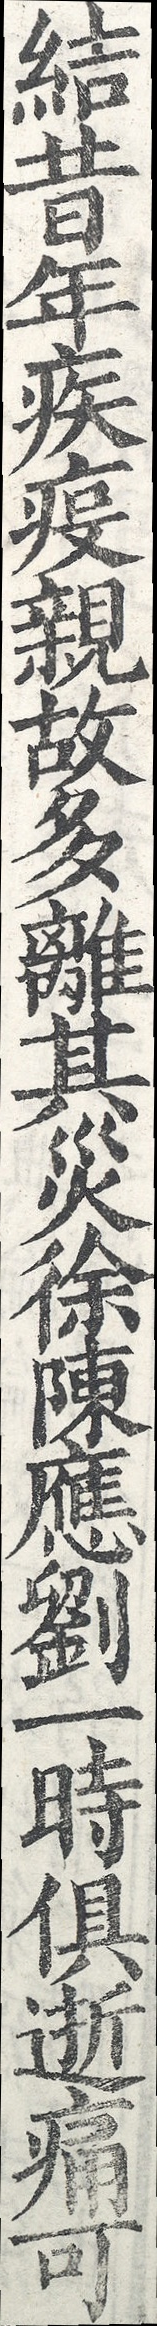結昔年疾疫親故多離其災徐陳應劉一時俱逝痛可
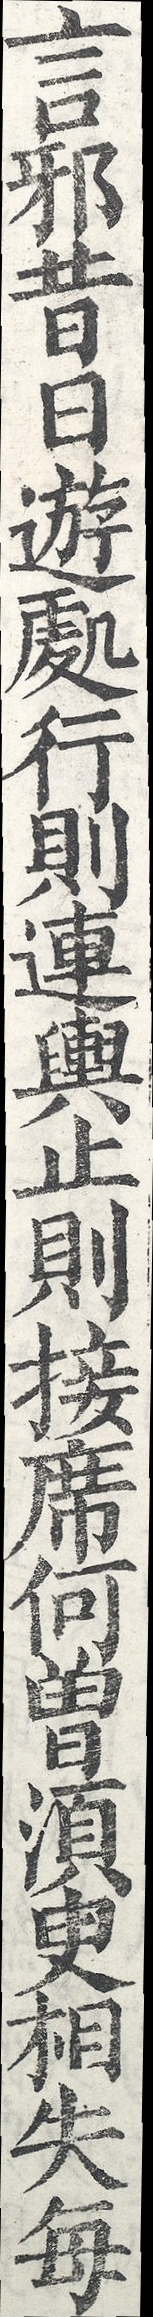言邪昔日遊處行則連輿止則接席何曾須臾相失每
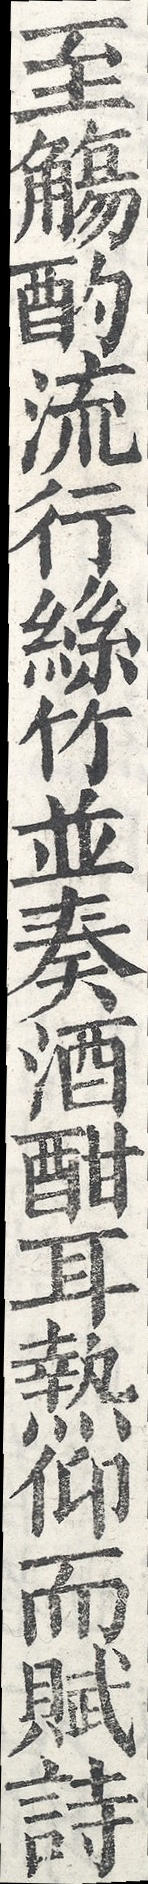至觴酌流行絲竹並奏酒酣耳熱仰而賦詩
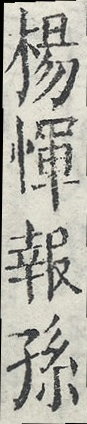楊惲報孫
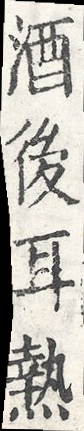酒後耳熱
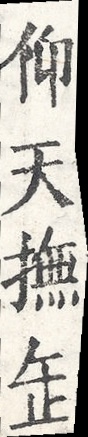仰天撫缶
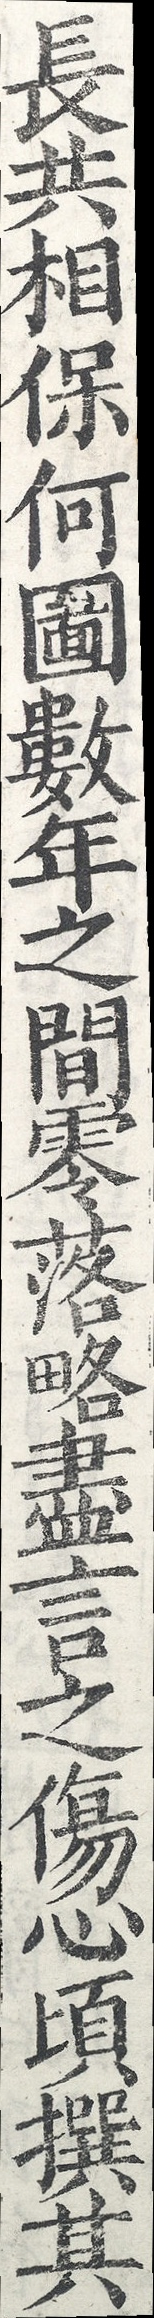長共相保何圖數年之間零落略盡言之傷心頃撰其
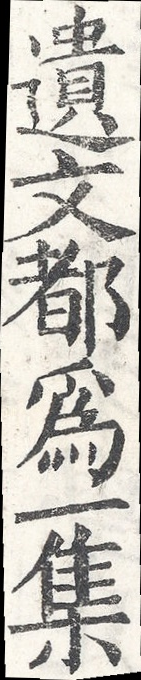遺文都為一集
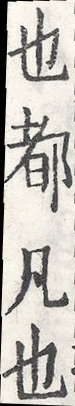也都凡也
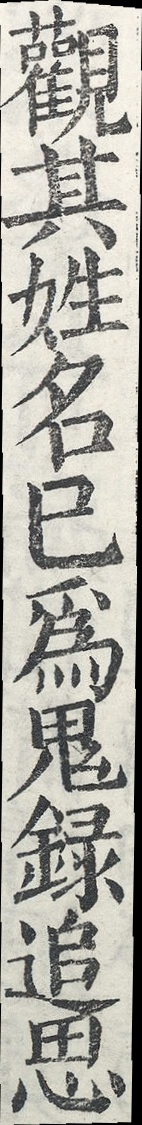觀其姓名已為鬼錄追思
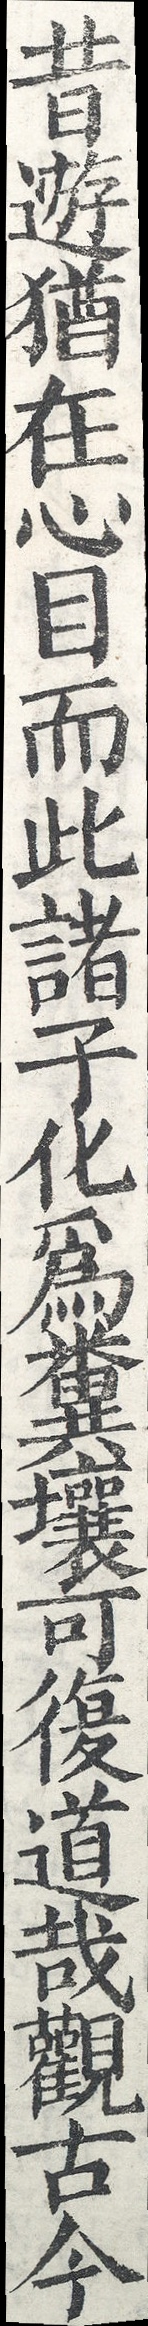昔遊猶在心目而此諸子化為糞壤可復道哉觀古今
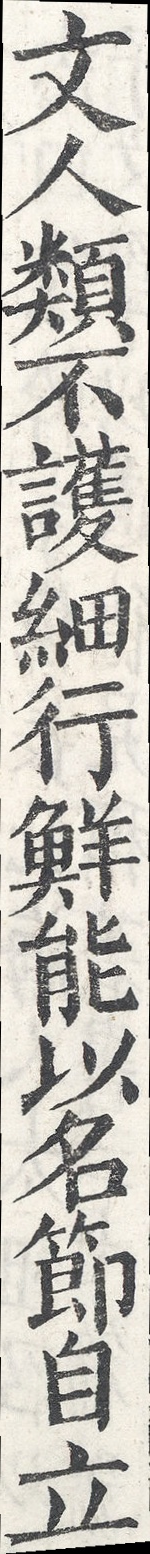文人類不護細行鮮能以名節自立
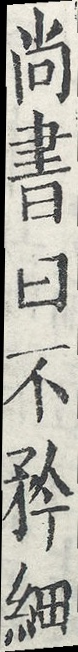尚書曰不矜細
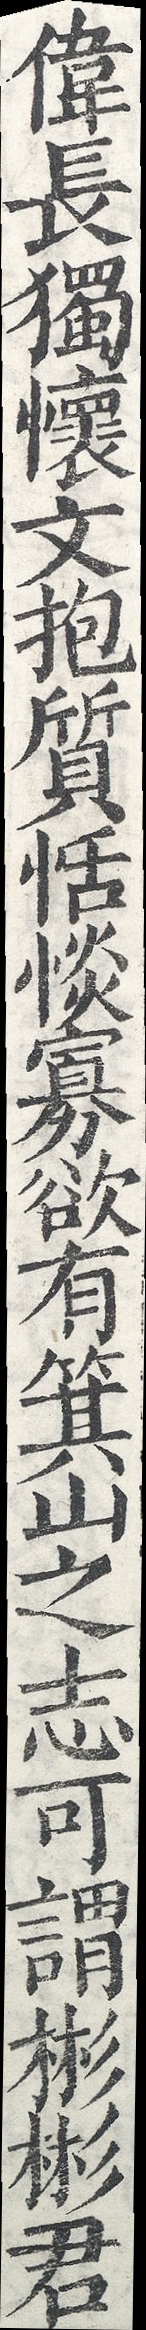偉長獨懷文抱質恬惔寡欲有箕山之志可謂彬彬君
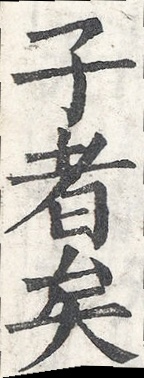子者矣
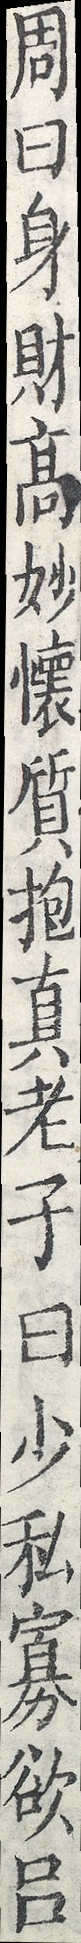周曰身財高妙懷質抱真老子曰少私寡欲呂
